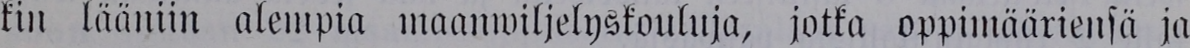kin lääniin alempia maanwiljelyskouluja, jotka oppimääriensä ja
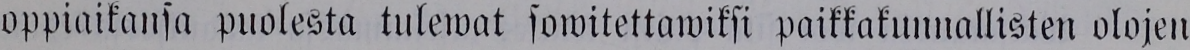oppiaikansa puolesta tulewat sowitettamiksi paikkakunnallisten olojen
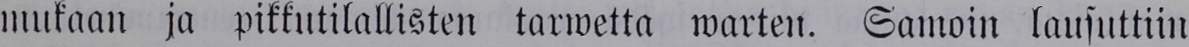mukaan ja pikkutilallisten tarwetta warten. Samoin lausuttiin
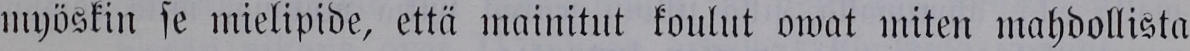myöskin se mielipide, että mainitut koulut owat miten mahdollista
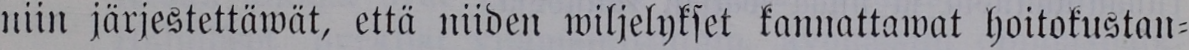niin järjestettäwät, että niiden wiljelykset kannattawat hoitokustan-
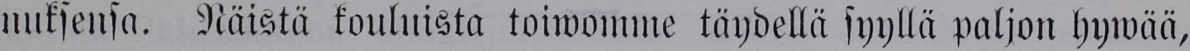nuksensa. Näistä kouluista toivomme täydellä syyllä paljon hywää,
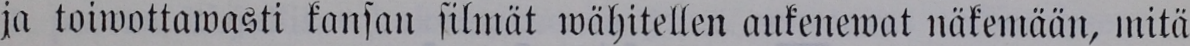ja toiwottamasti kansan silmät wähitellen aukenewat näkemään, mitä
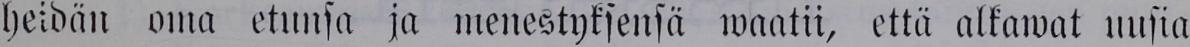heidän oma etunsa ja menestyksensä waatii, että alkawat uusia
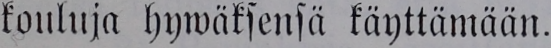kouluja hywäksensä käyttämään.
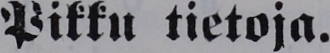Pikku tietoja.
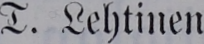T. Lehtinen.
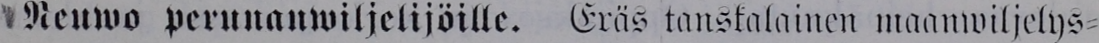Neuwo perunanwiljelijöille. Eräs tanskalainen maanwiljelys-
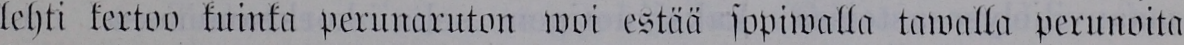lehti kertoo kuinka perunaruton woi estää sopiwalla tawalla perunoita
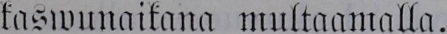kaswunaikana multaamalla.
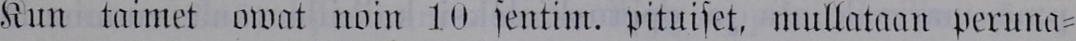Kun taimet owat noin 10 sentim. pituiset, mullataan peruna-
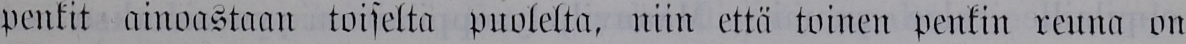penkit ainoastaan toiselta puolelta, niin että toinen penkin reuna on
